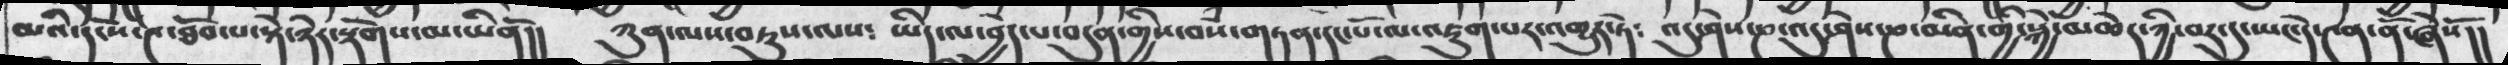མའི་དངོས་༤་ཐོབ་པ་སྟེ་ཉེར་སྡོགས་མ་ཡིནོ།།   ཀུན་ལས་བཏུས་པས༴  ཡིད་ལ་བྱེད་པ་བདུན་གྱིས་བསཾ་གཏན་དང་པོ་ལ་འཇུག་པར་འགྱུར་ཏེ༴ འདུ་ཤེས་ཎ་འདུ་ཤེས་ཎ་མིན་གྱི་སྐྱེ་མཆེད་ཀྱི་བར་དུ་ཡང་དེ་༤ན་ནོ་ཞེསོ།།
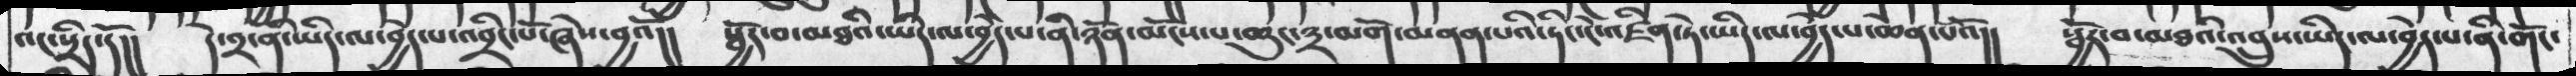འང་སྲིད་དོ།།  དེ་༢་ནི་ཡིད་ལ་བྱེད་པ་འབྲིང་པོ་ཞེས་བྱའོ།།  སྦྱོར་བ་མཐའི་ཡིད་ལ་བྱེད་པ་ནི་ཉོན་མོངས་པ་ཆུང་༣་མགོ་མནན་པའི་ཏིང་ངེ་འཛིན་ཏེ་ཡིད་ལ་བྱེད་པ་ཆེན་པོའོ།།  སྦྱོར་བ་མཐའི་འབྲུས་ཡིད་ལ་བྱེད་པ་ནི་གོང་
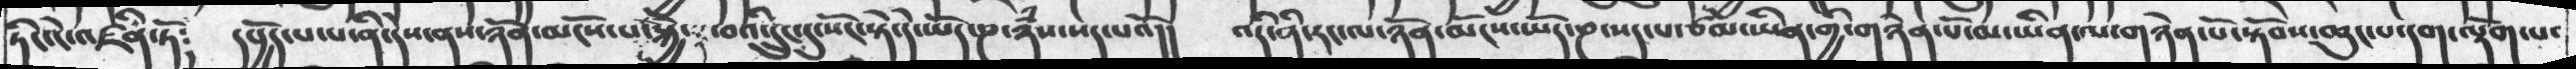ཏིང་ངེ་འཛིན་ཏོ༴  དཔྱོད་པ་པ་ནི་དེས་ནས་ཉོན་མོངས་སྐྱེ་  བའི་དྲུང་དུ་སོང་སྟེ་དེ་ཡོད་ཎ་ཉཾས་སད་པའོ།།  འདི་ནི་རང་ལ་ཉོན་མོངས་ཡོད་ཎ་སད་པ་ཙམ་ཡིན་གྱི་གཉེན་པོ་མ་ཡན་ལ་གཉེན་པོ་སྟོབས་ཆུང་པ་དག་ལྡོག་པ་
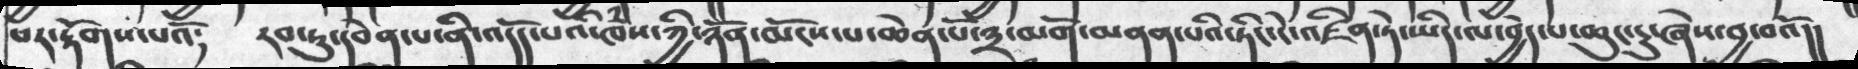པར་རྟོགས་པའོ༴   རབ་ཏུ་དབེན་པ་ནི་འདོད་པའི་ཁཾས་ཀྱི་ཉོན་མོངས་པ་ཆེན་པོ་༣་མགོ་མནན་པའི་ཏིང་ངེ་འཛིན་ཏེ་ཡིད་ལ་བྱེད་པ་ཆུང་ངུ་ཞེས་བྱ་བའོ།།
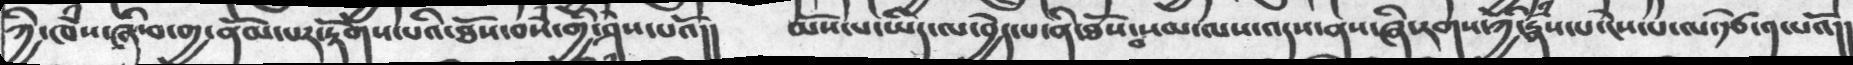ཀྱི་ཁཾས་ཞི་བ་གྱ་ནོམ་པར་རྟོགས་པའི་ཐོས་བསཾ་གྱི་ཤེས་པའོ།།  མོས་པ་ཡིད་ལ་བྱེད་པ་ནི་ཐོས་བསམ་ལས་འདས་ནས་ཞི་རགས་ཀྱི་རྣཾས་པ་ངེས་པ་ལ་རྩེ་༡་པའོ།།
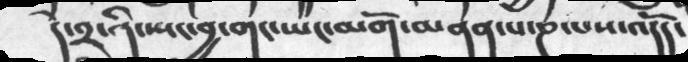དེ་༢་ནི་སྤང་བྱ་གང་ཡང་མགོ་མནན་པ་ཎ་པས་འདོད་
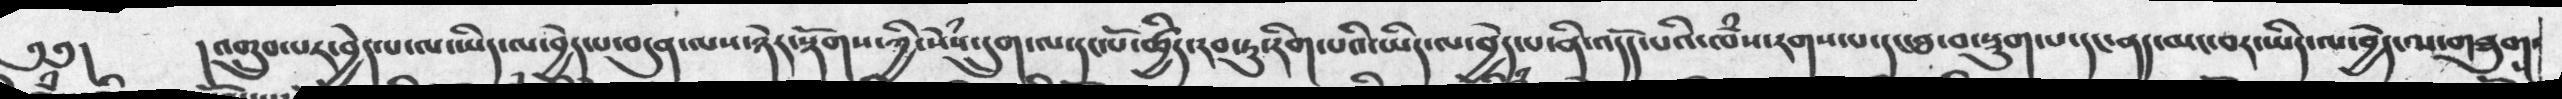༄༅།     །འགྲུབ་པར་བྱེད་པ་ལ་ཡིད་ལ་བྱེད་པ་བདུན་ལས་ཉེར་སྡོགས་ཀྱི་སེཾས་དྲུག་ལ་དང་པོ་ཚྱིད་རབ་ཏུ་རིག་པའི་ཡིད་ལ་བྱེད་པ་ནི་འདོད་པའི་ཁྃས་རགས་པ་དང་ཐ་བ་སྡུག་པ་དང་ནད་མང་་བར་ཡིད་ལ་བྱེད་ལ་གཟུགས་
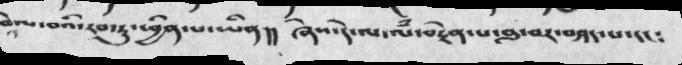ཕེལ་བའི་རབ་ཏུ་ཕྱིན་པ་ཡིན།།  ཞེས་དེ་ལ་ལཾ་བརྟེན་པ་བླ་བར་བཤད་པ་དང༴
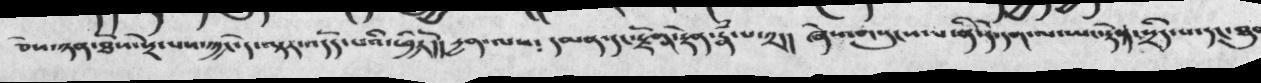ཅེས་ཉན་ཐོས་སྡེ་པས་ཀྱང་དེ་ལྟར་འདོད་པའི་ཕྱིརོ།།  དྱན་ལས༴   དམན་དང་རྫོགས་རྟེན་རྣཾ་པ་༢།།  ཞེས་གསུངས་པ་ནི་དེ་དག་ལ་ཡང་རྟེན་སྲིད་པ་དང་ཐུབ
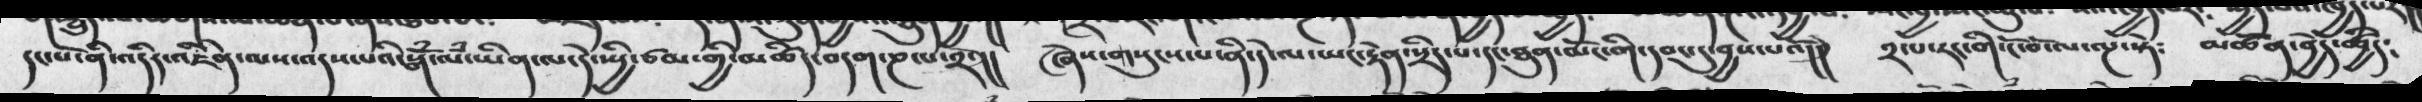དང་པོ་ནི་འདིར་འཇིེན་ལས་འདས་པའི་སྒོཾ་ལཾ་ཡིན་ལ་དེ་སྤྱི་ཙམ་གྱི་མཚིད་བདག་ཎ་པ་༢་།།  ཞེས་གསུངས་པ་ནི་དེ་ལ་ཡང་རྟེན་སྲིད་པ་དང་ཐུན་མོང་གི་དབང་དུ་བྱས་པའོ།།  ༢་པ་རང་གི་ངོ་བོ་ལ་ལྔ་སྟེ༴  མཚོན་བྱེད་ཚྱིད༴
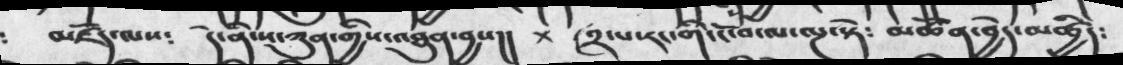མཛོད་ལས༴  དེ་ནི་ས་ཀུན་གྱིས་འཐུན་བྱས།།    ༢་པ་རང་གི་ངོ་བོ་ལ་ལྔ་སྟེ༴   མཚོན་བྱེད་མཚྱིད༴
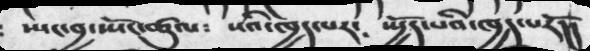སྤང་བྱ་སྤོང་ཚུལ༴   སའི་ཁྱད་པར༴  སྤྱོད་པའི་ཁྱད་པརོ།།
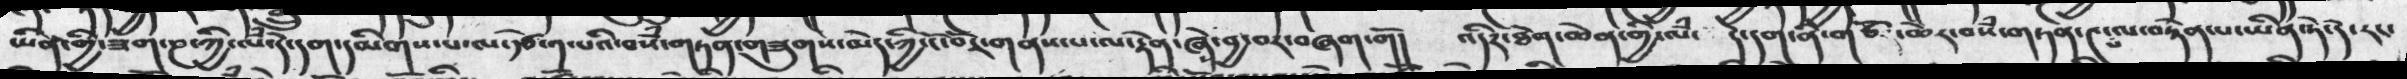ཡིན་གྱི་ཟག་ཎ་ཀྱི་ལཾ་དེ་དག་དམིགས་པ་ལ་རྩེ་༡་པའི་བསཾ་གཏན་གཟུགས་མེད་ཀྱི་ངོ་བོར་གནས་པ་ལ་རྟེན་ཞེས་བྱ་བར་བཞག་གོ།   འདིར་ཐེག་ཆེན་གྱི་ལཾ་  དེ་དག་ནི་གཙོར་ཆེར་བསཾ་གཏན་༤་པ་ལ་བརྟེན་པ་ཡིན་ཏེ་དེ་རང་
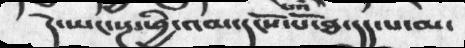དེ་ཡང་སྔ་ཕྱི་འམ་དངོས་པོ་ཐ་དད་པ་མ་
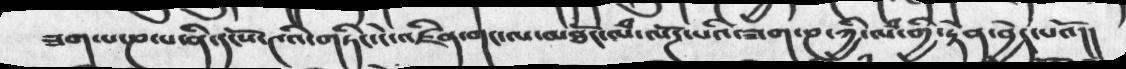ཟག་པ་ཎ་པ་ནི་དངོས་༤འི་གཏིང་ངེ་འཛིན་གང་ལ་མཐོང་ལཾ་ལོཌ་པའི་ཟག་ཎ་ཀྱི་ལཾ་གྱི་རྟེན་བྱེད་པའོ།།
